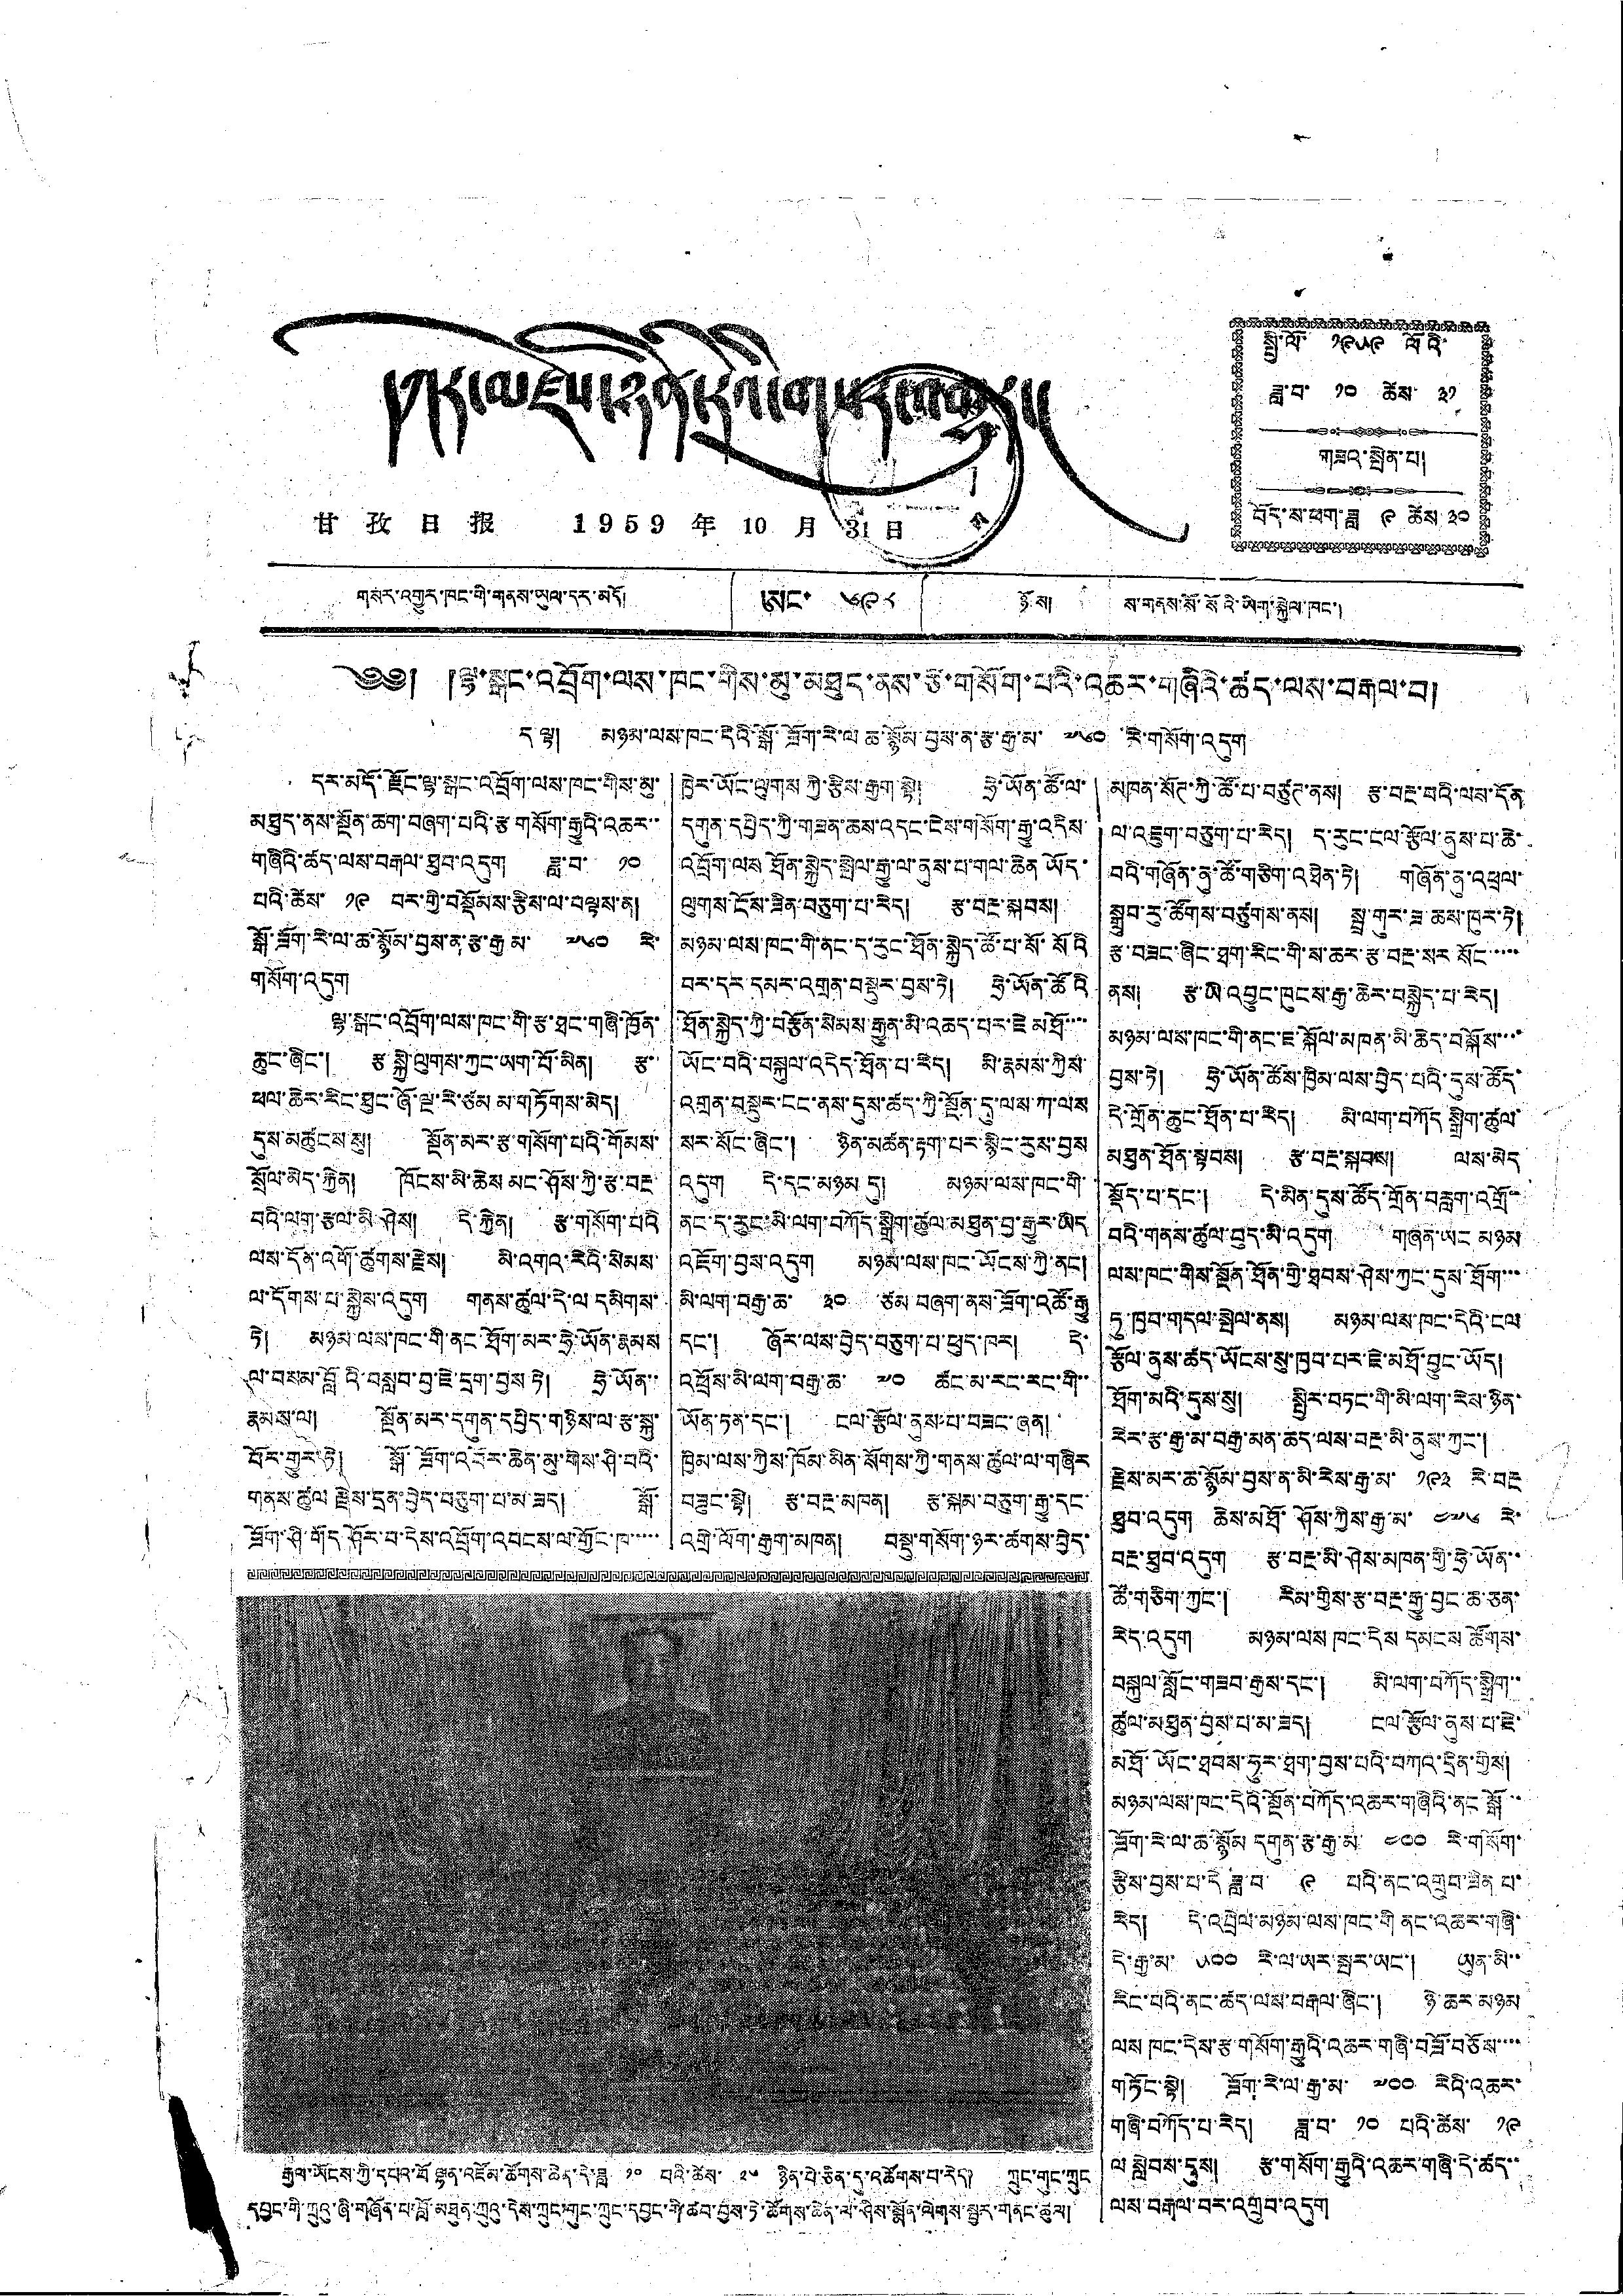དཀར་མཛེས་ཉིན་རེའི་གསར་འགྱུར་།
甘 孜 日 报 1 9 5 9 年 10 月 31 日
སྤྱི་ལོ་ ༡༩༥༩ ལོའི་
ཟླ་བ་ ༡༠ ཚེས ༣༡
གཟའ་སྤེན་པ།
བོད་ས་ཕག་ཟླ ༩ ཚེས ༣༠
༄༅། །ལྷ་སྒང་འབྲོག་ལས་ཁང་གིས་མུ་མཐུན་ནས་རྩ་གསོག་པའི་འཆར་གཞིའི་ཚད་ལས་བརྒལ་བ།
ད་ལྟ། མཉམ་ལས་ཁང་དེའི་སྒོ་ཟོག་རེ་ལ ཆ་སྙོམ་བྱས་ན་རྩ་རྒྱ་མ་ ༧༦༠ རེ་གསོག་འདུག
དར་མདོ་རྫོང་ལྷ་སྒང་འབྲོག་ལས་ཁང་གིས་མུ་
མཐུན་ནས་སྔོན་ཆག་བཞག་པའི་རྩ གསོག་རྒྱུའི་འཆར་་
གཞིའི་ཚད་ལས་བརྒལ་ཐུབ་འདུག ཟླ་བ་ ༡༠
པའི་ཚེས་ ༡༩ བར་གྱི་བསྡོམས་རྩིས་ལ་བལྟས་ན།
སྒོ་ཟོག་རེ་ལ་ཆ་སྙོམ་བྱས་ན་རྩ་རྒྱ མ་ ༧༦༠ རེ་
གསོག་འདུག
ལྷ་སྒང་འབྲོག་ལས་ཁང་གི་རྩ་ཐང་གཞི་ཁྱོན་
ཆུང་ཞིང་། རྩ སྐྱེ་ལུགས་ཀྱང་ཡག་པོ་མིན། རྩ་
ཕལ་ཆེར་རིང་ཐུང་ཞོ་ལྔ་རེ་ཙམ མ་གཏོགས་མེད།
དུས་མཚུངས་སུ། སྔོན་མར་རྩ་གསོག་པའི་གོམས་
སྲོལ་མེད་རྐྱེན། ཁོངས་མི་ཆེས མང་ཤོས་ཀྱི་རྩ་བརྔ
བའི་ལག་རྩལ་མི་ཤེས། དེ་རྐྱེན། རྩ་གསོག་པའི
ལས་དོན་འགོ་ཚུགས་རྗེས། མི་འགའ་རེའི་སེམས་
ལ་དོགས་པ་སྐྱེས་འདུག གནས་ཚུལ་དེ་ལ དམིགས་
ཏེ། མཉམ་ལས་ཁང་གི་ནང་ཐོག་མར་ཧྲེ་ཡོན་རྣམས
ལ་བསམ་བློའི་བསླབ་བྱ་ཇེ་དྲག་བྱས ཏེ། ཧྲེ་ཡོན་་
རྣམས་ལ། སྔོན་མར་དགུན་དཔྱིད་གཉིས་ལ་རྩ་སྐྱ་
བོར་གྱུར་ཏེ། སྒོ་ཟོག་འབོར་ཆེན་མུ་གེས་ཤི་བའི་
གནས་ཚུལ་རྗེས་དྲན་བྱེད་བཅུག་པ་མ་ཟད། སྒོ་
ཟོག་ཤི་གོད ཤོར་བ་དེས་འབྲོག་འབངས་ལ་གྱོང་ཁ་་་་་
ཁྱེར་ཡོང་ལུགས ཀྱི་རྩིས་རྒྱག་སྟེ། ཧྲེ་ཡོན་ཚོ་ལ་
དགུན་དཔྱིད་ཀྱི་གཟན་ཆས་འདང་ངེས་གསོག་རྒྱུ་འདིས་
འབྲོག་ལས ཐོན་སྐྱེད་སྤེལ་རྒྱུ་ལ་ནུས་པ་གལ་ཆེན ཡོད་
ལུགས་ངོས་ཟིན་བཅུག་པ་རེད། རྩ་བརྔ་སྐབས།
མཉམ་ལས་ཁང་གི་ནང་ད་རུང་ཐོན་སྐྱེད་ཚོ་པ་སོ་སོའི
བར་དར་དམར་འགྲན་བསྡུར་བྱས་ཏེ། ཧྲེ་ཡོན་ཚོའི
ཐོན་སྐྱེད་ཀྱི་བརྩོན་སེམས་རྒྱུན་མི་འཆད་པར་ཇེ མཐོ་་་་
ཡོང་བའི་བསྐུལ་འདེད་ཐོན་པ་རེད། མི་རྣམས་ཀྱིས་
འགྲན་བསྡུར་ངང་ནས་དུས་ཚད་ཀྱི་སྔོན་དུ་ལས་ཀ་ལས
སར་སོང་ཞིང་། ཉིན་མཚན་རྟག་པར་སྙིང་རུས་བྱས
འདུག དེ་དང་མཉམ དུ། མཉམ་ལས་ཁང་གི་
ནང་ད་རུང་མི་ལག་བཀོད་སྒྲིག་ཚུལ་མཐུན་བྱ་རྒྱུར་ཡིད
འཇོག་བྱས་འདུག མཉམ་ལས་ཁང་ཡོངས་ཀྱི་ནང།
མི་ལག་བརྒྱ་ཆ་ ༣༠ ཙམ བཞག་ནས་ཟོག་འཚོ་རྒྱུ
དང་། ཞོར་ལས་བྱེད་བཅུག་པ་ཕུད་ཁར། དེ་
འཕྲོས་མི་ལག་བརྒྱ་ཆ་ ༧༠ ཚང་མ་རང་རང་གི་་
ཡོན་ཏན་དང་། ངལ་རྩོལ་ནུས་པ་བཟང་ཞན།
ཁྱིམ་ལས་ཀྱིས་ཁོམ་མིན་སོགས་ཀྱི་གནས་ཚུལ་ལ་གཞིར
བཟུང་སྟེ། རྩ་བརྔ་མཁན། རྩ་སྐམ་བཅུག་རྒྱུ་དང་
འགྲེ་ལོག་རྒྱག་མཁན། བསྡུ་གསོག་ཉར་ཚགས་བྱེད་
མཁན་སོཊ་ཀྱི་ཚོ་པ་བཙུཊ་ནས། རྩ་བརྔ་བའི་ལས་དོན
ལ་འཇུག་བཅུག་པ་རེད། ད་རུང་ང་རྩོལ་ནུས་པ་ཆེ་
བའི་གཞོན་ནུ་ཚོ་གཅིག་འཐེན་ཏེ། གཞོན་ནུ་འཕྲལ་
སྒྲུབ་རུ་ཚོགས་བཙུགས་ནས། སྦྲ་གུར་ཟ་ཆས་ཁུར་ཏེ།
རྩ་བཟང་ཞིང་ཐག་རིང་གི་ས་ཆར་རྩ་བརྔ་སར སོང་་་་་
ནས། རྩ་ཡི འབྱུང་ཁུངས་རྒྱ་ཆེར་བསྐྱེད་པ་རེད།
མཉམ་ལས་ཁང་གི་ནང་ཇ་སྐོལ་མཁན་མི་ཆེད་བསྐོས་་་་
བྱས་ཏེ། ཧྲེ་ཡོན་ཚོས་ཁྱིམ་ལས་བྱེད་པའི་དུས་ཚོད་
དེ་གྲོན་ཆུང་ཐོན་པ་རེད། མི་ལག་བཀོད སྒྲིག་ཚུལ་
མཐུན་ཐོན་སྟབས། རྩ་བརྔ་སྐབས། ལས་མེད
སྡོད་པ་དང་། དེ་མིན་དུས་ཚོད་གྲོན་བརླག་འགྲོ་
བའི་གནས་ཚུལ་བུད་མི་འདུག གཞན་ཡང མཉམ
ལས་ཁང་གིས་སྔོན་ཐོན་གྱི་ཐབས་ཤེས་ཀྱང་དུས་ཐོག་་་
ཏུ་ཁྱབ་གདལ་སྤེལ་ནས། མཉམ་ལས་ཁང་དེའི་ངལ
རྩོལ་ནུས་ཚད་ཡོངས་སུ་ཁྱབ་པར་ཇེ་མཐོ་བྱུང་ཡོད།
ཐོག་མའི་དུས་སུ། སྤྱིར་བཏང་གི་མི་ལག་རེས་ཉིན་
རེར་རྩ་རྒྱ་མ་བརྒྱ་མན་ཆད་ལས་བརྔ་མི་ནུས་ཀྱང་།
རྗེས་མར་ཆ་སྙོམ་བྱས་ན་མི་རེས་རྒྱ་མ་ ༡༩༣ རེ་བརྔ
ཐུབ་འདུག ཆེས་མཐོ་ཤོས་ཀྱིས་རྒྱ་མ་ ༤༧༦ རེ་
བརྔ་ཐུབ་འདུག རྩ་བརྔ་མི་ཤེས་མཁན་གྱི་ཧྲེ་ཡོན་་
ཚོ་གཅིག་ཀྱང་། རིམ་གྱིས་རྩ་བརྔ་རྒྱུ་བྱང་ཆ་ཅན་
རེད་འདུག མཉམ་ལས ཁང་དེས དམངས ཚོགས་
བསྐུལ་སློང་གཟབ་རྒྱས་དང་། མི་ལག་བཀོད་སྒྲིག་་
ཚུལ་མཐུན་བྱས་པ་མ་ཟད། ངལ་རྩོལ་ནུས་པ་ཇེ་
མཐོ་ཡོང་ཐབས་ཧུར་ཐག་བྱས་པའི་བཀའ་དྲིན་གྱིས།
མཉམ་ལས་ཁང་དེའི་སྔོན་བཀོད་འཆར་གཞིའི་ནང་སྒོ་་
ཟོག་རེ་ལ་ཆ་སྙོམ དགུན་རྩ་རྒྱ་མ་ ༤༠༠ རེ་གསོག་
རྩིས་བྱས་པ་དེ ཟླ་བ་ ༩ པའི་ནང་འགྲུབ་ཟིན པ་
རེད། དེ་འབྲེལ་མཉམ་ལས་ཁང་གི ནང་འཆར་གཞི་
དེ་རྒྱ་མ་ ༥༠༠ རེ་ལ་ཡར་སྤར་ཡང་། ཡུན་མི་་
རིང་བའི་ནང་ཚད་ལས་བརྒལ་ཞིང་། ཉེ་ཆར མཉམ
ལས ཁང་དེས་རྩ་གསོག་རྒྱུའི་འཆར་གཞི་བཟོ་བཅོས་་་་
གཏོང་སྟེ། ཟོག་རེ་ལ་རྒྱ་མ་ ༧༠༠ རེའི་འཆར་
གཞི་བཀོད་པ་རེད། ཟླ་བ་ ༡༠ པའི་ཚེས་ ༡༩
ལ སླེབས་དུས། རྩ་གསོག་རྒྱུའི་འཆར་གཞི་དེ་ཚད་་
ལས་བརྒལ་བར་འགྲུབ་འདུག
རྒྱལ་ཡོངས་ཀྱི་དཔའ་བོ ལྷན་འཛོམ་ཚོགས་ཆེན་དེ་ཟླ་ ༡༠ བའི་ཚེས་ ༢༦ ཉིན་པེ་ཅིན་དུ་འཚོགས་པ་རེད། ཀྲུང་གུང་ཀྲུང་
དབྱང་གི་ཀྲུའུ་ཞི་གཞོན་པ་བློ་མཐུན་ཀྲུའུ་དེས་ཀྲུང་གུང་ཀྲུང་དབྱང་གི་ཚབ་བྱས་ཏེ་ཚོགས་ཆེན་ལ་ཤིས་སྨོན་ལེགས་སྦྱར་གནང་ཚུལ།
